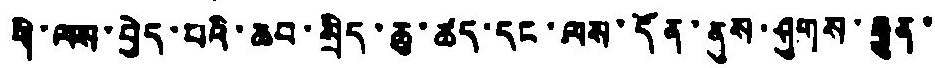གི་ལས་བྱེད་པའི་ཆབ་སྲིད་ཆུ་ཚད་དང་ལས་དོན་ནུས་ཤུགས་རྒྱུན་
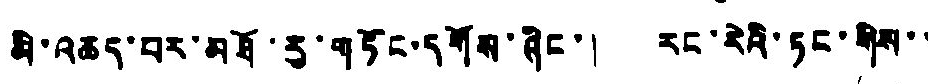མི་འཆད་པར་མཐོ་རུ་གཏོང་དགོས་ཞིང་། རང་རེའི་ཏང་གིས་་
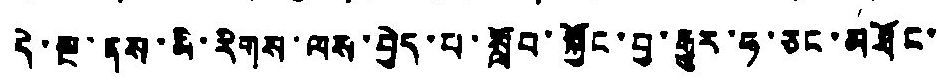དེ་སྔ་དུས་མི་རིགས་ལས་བྱེད་པ་སློབ་སྐྱོང་བྱ་རྒྱུར་ཧ་ཅང་མཐོང་
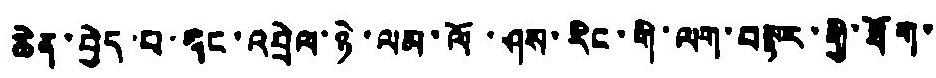ཆེན་བྱེད་པ་དང་འབྲེལ་ཉེ་ལམ་ལོ་ཤས་རིང་གི་ལག་བསྟར་གྱི་ཐོག་
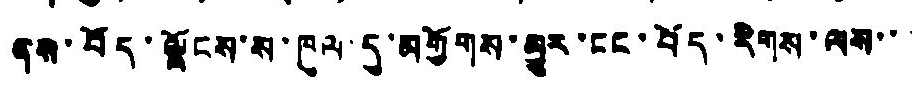ནས་བོད་ལྗོངས་ས་ཁུལ་དུ་མགྱོགས་མྱུར་ངང་བོད་རིགས་ལས་་་
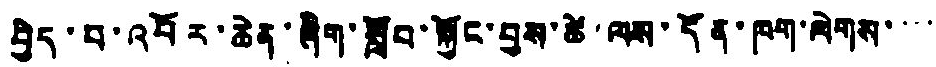བྱེད་པ་འབོར་ཆེན་ཞིག་སློབ་སྐྱོང་བྱས་ཚེ་ལས་དོན་ཁག་ལེགས་་་་
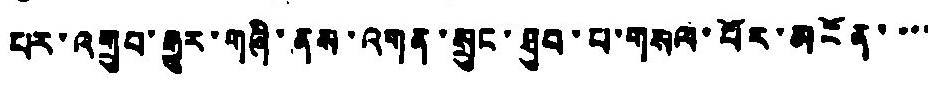པར་འགྲུབ་རྒྱུར་གཞི་ནས་འགན་སྲུང་ཐུབ་པ་གསལ་པོར་མངོན་་་་
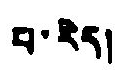པ་རེད།
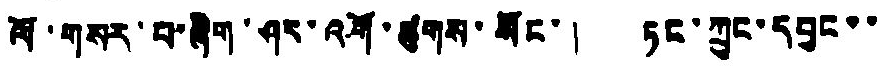ལོ་གསར་པ་ཞིག་ཤར་འགོ་ཚུགས་སོང་། ཏང་ཀྲུང་དབྱང་་
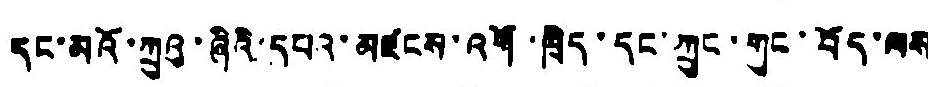དང་མའོ་ཀྲུའུ་ཞིའི་དཔའ་མཛངས་འགོ་ཁྲིད་དང་ཀྲུང་གུང་བོད་ལས
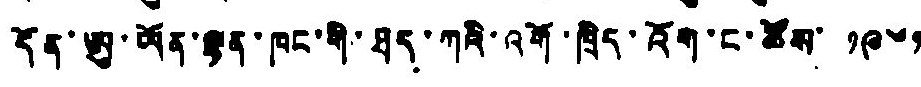དོན་ཨུ་ཡོན་ལྷན་ཁང་གི་ཐད་ཀའི་འགོ་ཁྲིད་འོག་ང་ཚོས་ ༡༩༦༡
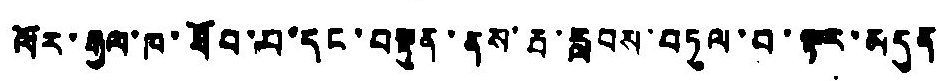ལོར་རྒྱལ་ཁ་ཐོབ་པ་དང་བསྟུན་ནས་རྦ་རླབས་བཏུལ་བ་ལྟར་མདུན
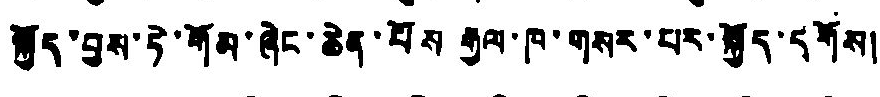སྐྱོད་བྱས་ཏེ་གོམ་ཞེང་ཆེན་པོས རྒྱལ་ཁ་གསར་པར་སྐྱོད་དགོས།
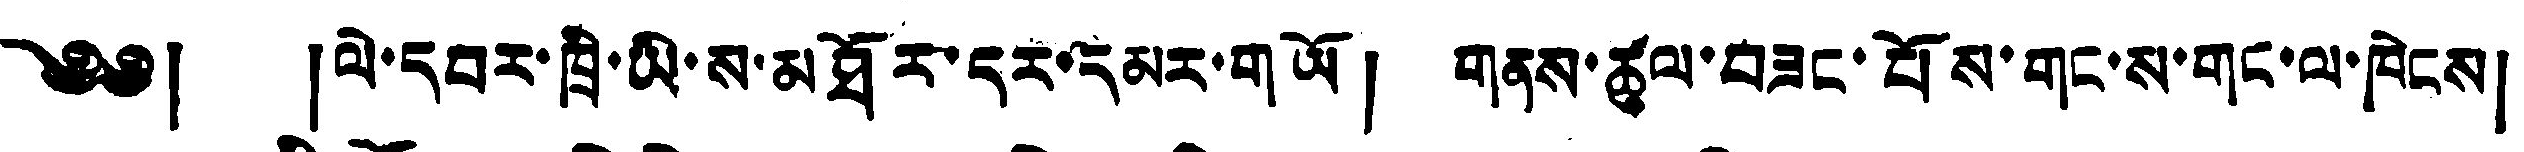༄༅། །ལེ་དབར་ཁྲི་ཡི་ས་མཐོར་དར་དམར་གཡོ། གནས་ཚུལ་བཟང་པོས་གང་ས་གང་ལ་ཁེངས།
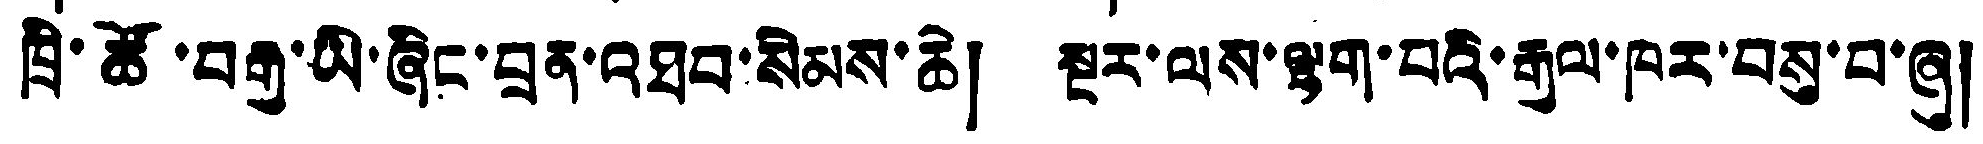ཁྲི་ཚོ་བརྒྱ་ཡི་ཞིང་བྲན་འཐབ་སེམས་ཆེ། སྔར་ལས་ལྷག་པའི་རྒྱལ་ཁར་བསུ་བ་ཞུ།
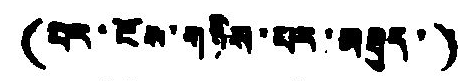(པར་ངོས་གཞིས་པར་མཐུད་)
